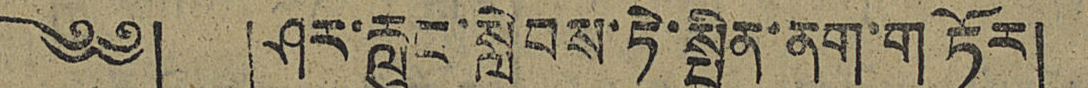༄༅། །ཤར་རླུང་སླེབས་ཏེ་སྤྲིན་ནག་གཏོར།
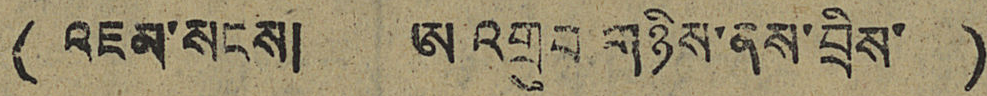(འཇམ་སངས། ཨ འགྲུབ་གཉིས་ནས་བྲིས་ )
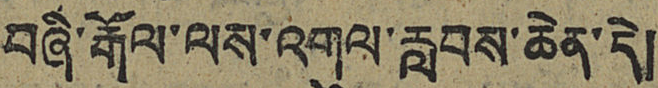བཞི་རྒོལ་ལས་འགུལ་རླབས་ཆེན་དེ།
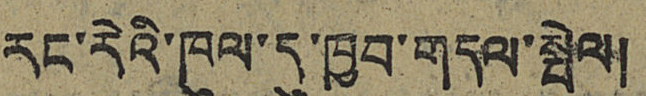རང་རེའི་ཁུལ་དུ་ཁྱབ་གདལ་སྤེལ།
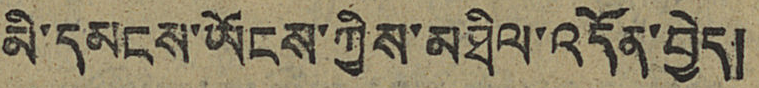མི་དམངས་ཡོངས་ཀྱིས་མཐིལ་འདོན་བྱེད།
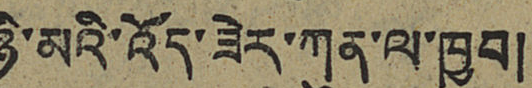ཉི་མའི་འོད་ཟེར་ཀུན་ལ་ཁྱབ།
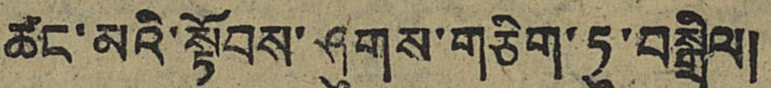ཚང་མའི་སྟོབས་ཤུགས་གཅིག་ཏུ་བསྒྲིལ།
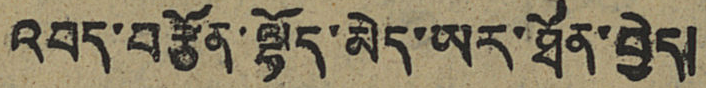འབད་བརྩོན་ལྷོད་མེད་ཡར་ཐོན་བྱེད།
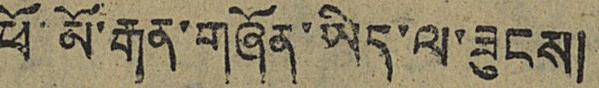ཕོ་མོ་རྒན་གཞོན་ཡིད་ལ་ཟུངས།
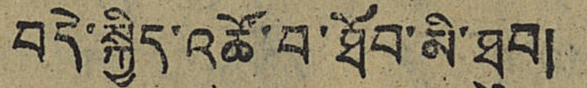བདེ་སྐྱིད་འཚོ་བ་ཐོབ་མི་ཐུབ།
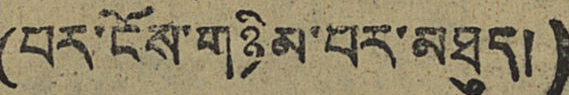(པར་ངོས་གཉིམ་པར་མཐུད།)
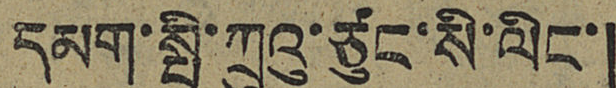དམག་སྤྱི་ཀྲུའུ་ཙུང་སི་ལིང་།
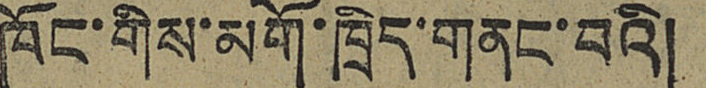ཁོང་གིས་མགོ་ཁྲིད་གནང་བའི།
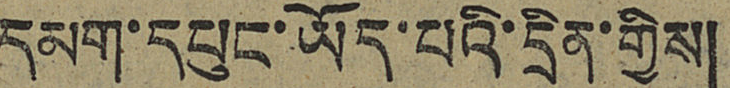དམག་དཔུང་ཡོད་པའི་དྲིན་གྱིས།
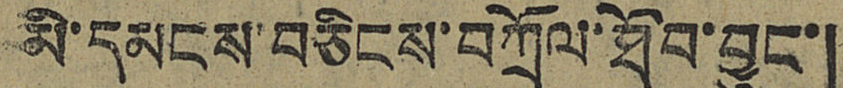མི་དམངས་བཅིངས་བཀྲོལ་ཐོབ་བྱུང་།
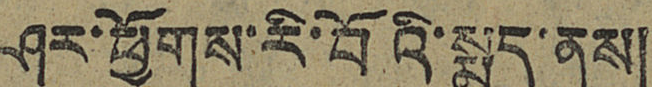ཤར་ཕྱོགས་རི་བོའི་སྨད་ནས།
